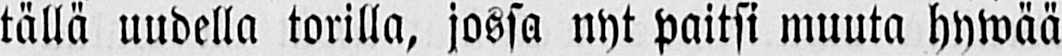tällä uudella torilla, jossa nyt paitsi muuta hywää
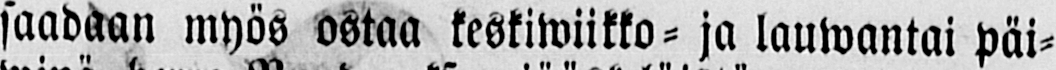saadaan myös ostaa keskiwiikko- ja lauwantai päi-
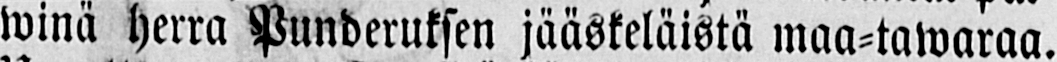winä herra Punderuksen jääskeläistä maa-tawaraa.
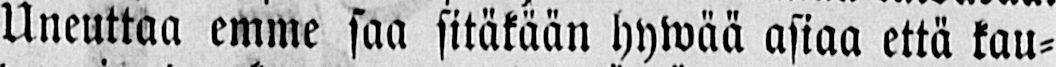Uneuttaa emme saa sitäkään hywää asiaa että kau-
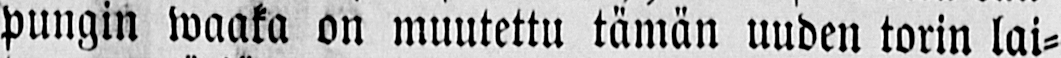pungin waaka on muutettu tämän uuden torin lai-
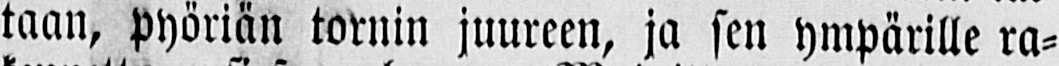taan, pyöriän tornin juureen, ja sen ympärille ra-
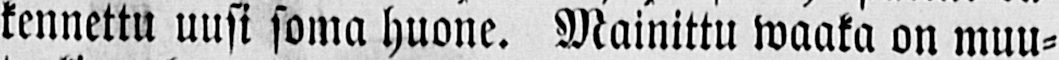kennettu uusi soma huone. Mainittu waaka on muu-
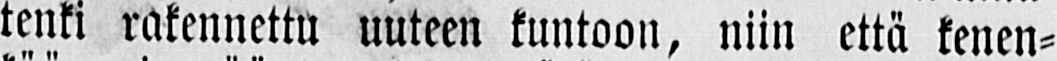tenki rakennettu uuteen kuntoon, niin että kenen-
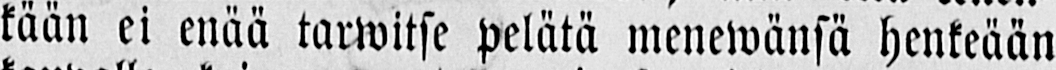kään ei enää tarwitse pelätä menewänsä henkeään
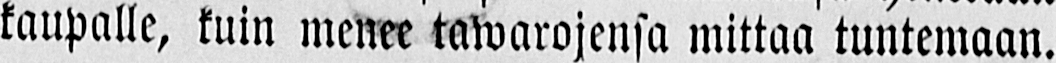kaupalle, kuin menee tawarojensa mittaa tuntemaan.
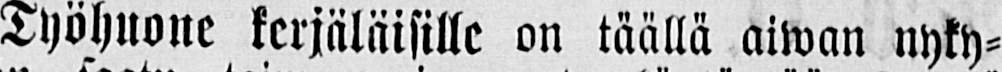Työhuone kerjäläisille on täällä aiwan nyky-
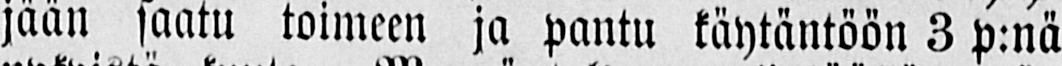jään saatu toimeen ja pantu käytäntöön 3 p:nä
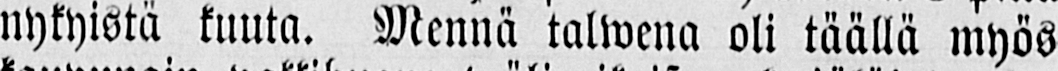nykyistä kuuta. Mennä talwena oli täällä myös
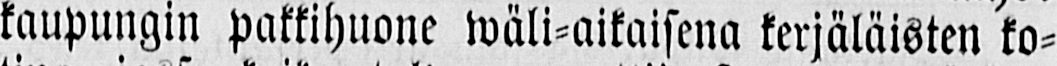kaupungin pakkihuone wäli-aikaisena kerjäläisten ko-
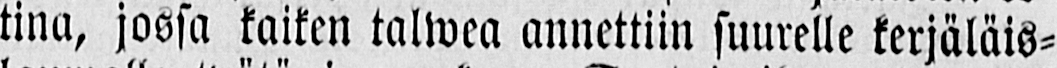tina, jossa kaiken talwea annettiin suurelle kerjäläis-
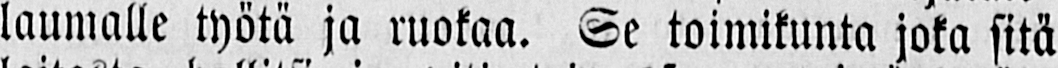laumalle työtä ja ruokaa. Se toimikunta joka sitä
